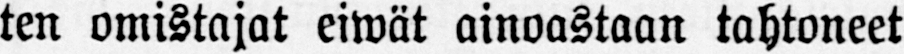ten omistajat eiwät ainoastaan tahtoneet
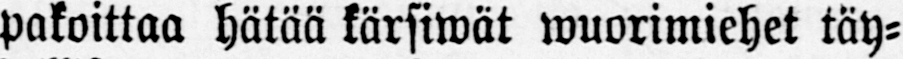pakoittaa hätää kärsiwät wuorimiehet täy-
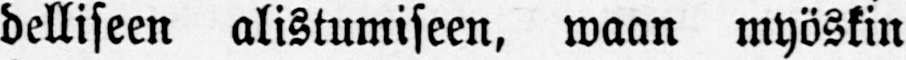delliseen alistumiseen, waan myöskin
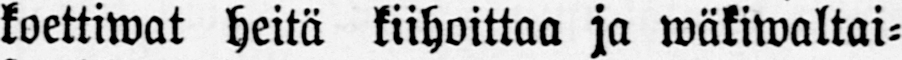koettiwat heitä kiihoittaa ja wäkiwaltai-
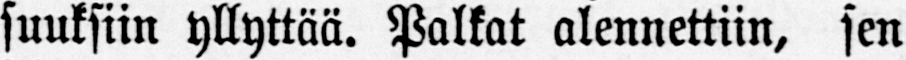suuksiin yllyttää. Palkat alennettiin, sen
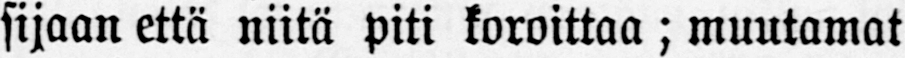sijaan että niitä piti koroittaa; muutamat
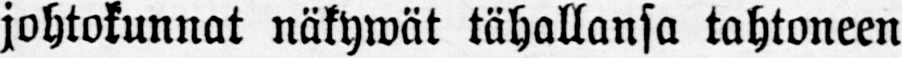johtokunnat näkywät tähallansa tahtoneen
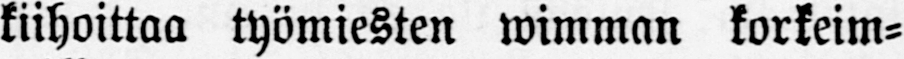kiihoittaa työmiesten wimman korkeim-
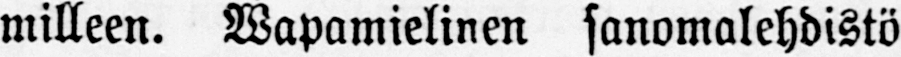milleen. Wapamielinen sanomalehdistö
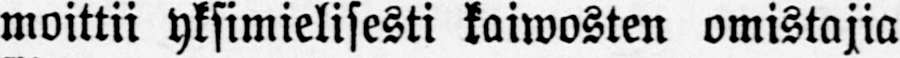moittii yksimielisesti kaiwosten omistajia
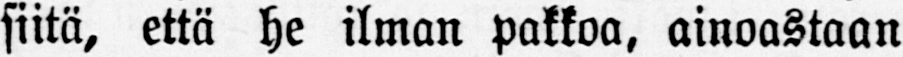siitä, että he ilman pakkoa, ainoastaan
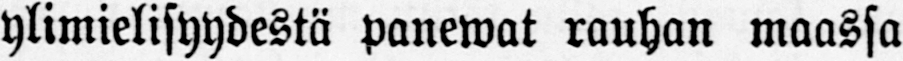ylimielisyydestä panewat rauhan maassa
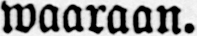waaraan.
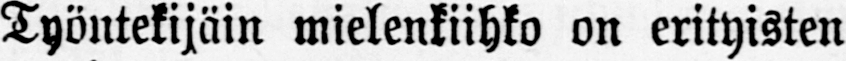Työntekijäin mielenkiihko on erityisten
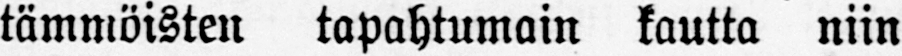tämmöisten tapahtumain kautta niin
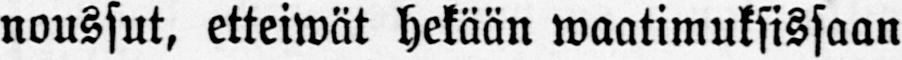noussut, etteiwät hekään waatimuksissaan
